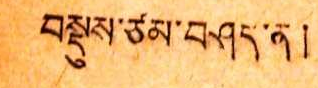བསྡུས་ཙམ་བཤན་ན།
